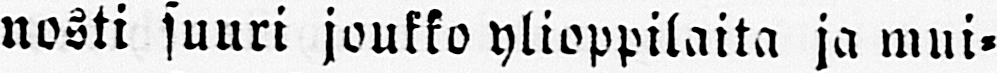nosti suuri joukko ylioppilaita ja mui-
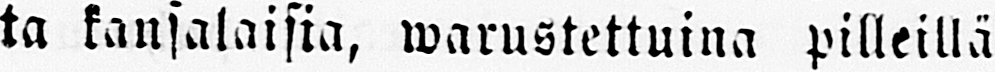ta kansalaisia, warustettuina pilleillä
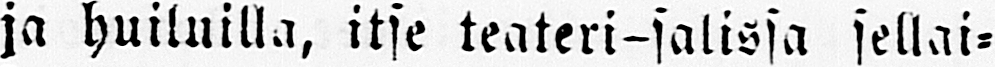ja huiluilla, itse teateri-salissa sellai-
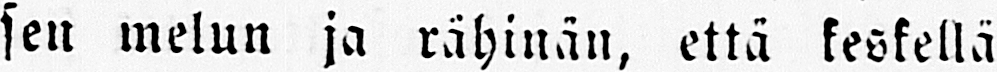sen melun ja rähinän, että keskellä
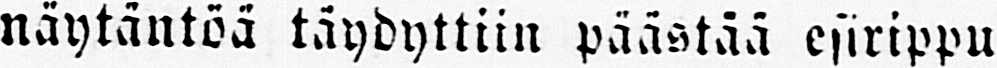näytäntöä täydyttiin päästää esirippu
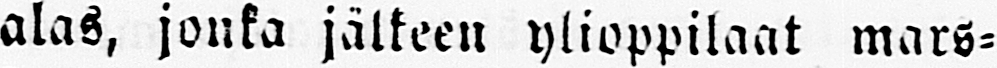alas, jonka jälteen ylioppilaat mars-
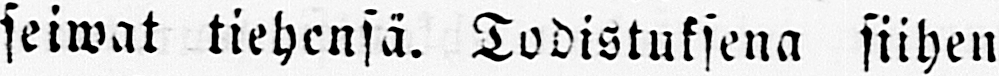seiwat tiehensä. Todistuksena siihen
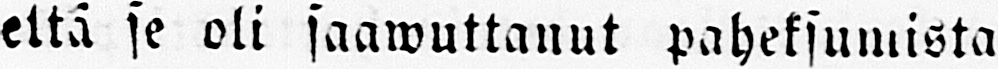että se oli saawuttanut paheksumista
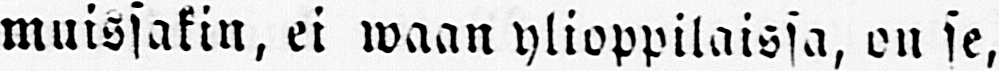muissakin, ei waan ylioppilaissa, on se,
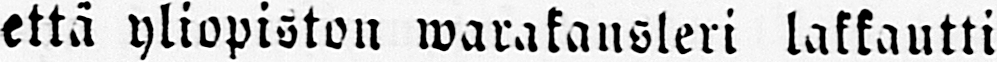että yliopiston warakansleri lakkautti
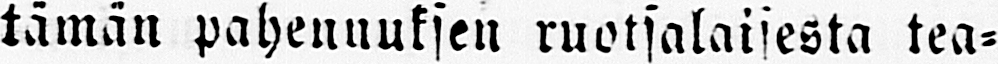tämän pahennuksen ruotsalaisesta tea-
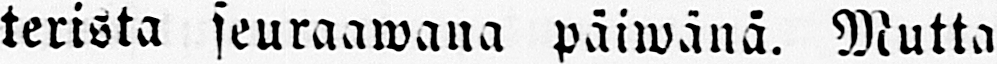terista seuraawana päiwänä. Mutta
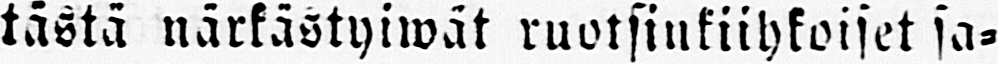tästä närkästyiwät ruotsinkiihkoiset sa-
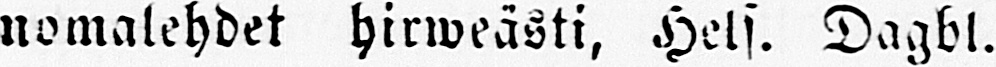nomalehdet hirweästi, Hels. Dagbl.
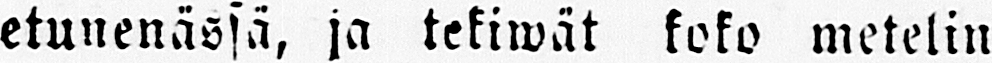etunenässä, ja tekiwät koko metelin
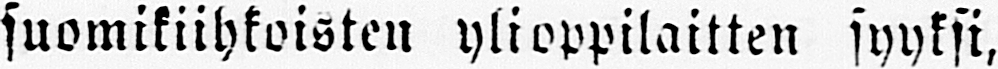suomikiihkoisten ylioppilaitten syyksi,
